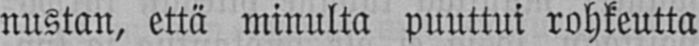nustan, että minulta puuttui rohkeutta
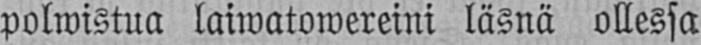polwistua laiwatowereini läsnä ollessa
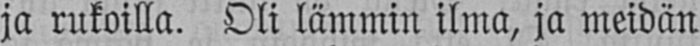ja rukoilla. Oli lämmin ilma, ja meidän
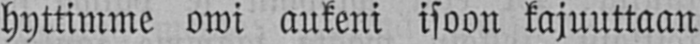hyttimme owi aukeni isoon kajuuttaan
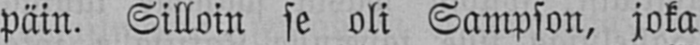päin. Silloin se oli Sampson, joka
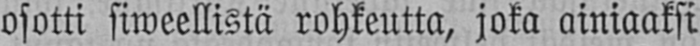osotti siweellistä rohkeutta, joka ainiaaksi
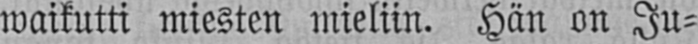waikutti miesten mieliin. Hän on Ju-
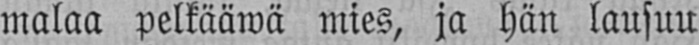malaa pelkääwä mies, ja hän lausuu
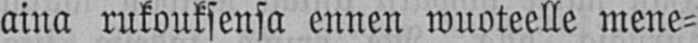aina rukouksensa ennen wuoteelle mene-
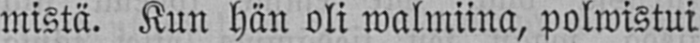mistä. Kun hän oli walmiina, polwistui
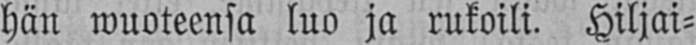hän wuoteensa luo ja rukoili. Hiljai-
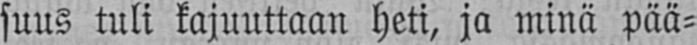suus tuli kajuuttaan heti, ja minä pää-
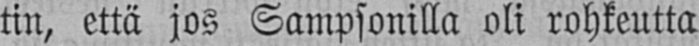sin, että jos Sampsonilla oli rohkeutta
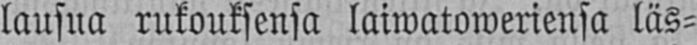lausua rukouksensa laiwatoweriensa läs-
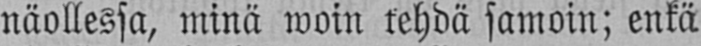näollessa, minä woin tehdä samoin; enkä
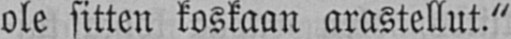ole sitten koskaan arastellut."
